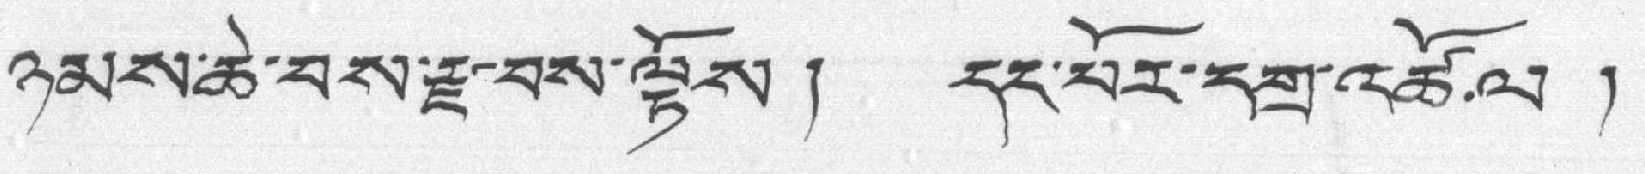ཉམས་ཆེ་བས་རྫ་བས་ལྟོས ། དང་པོར་དགྲ་འཚོ་ལ །
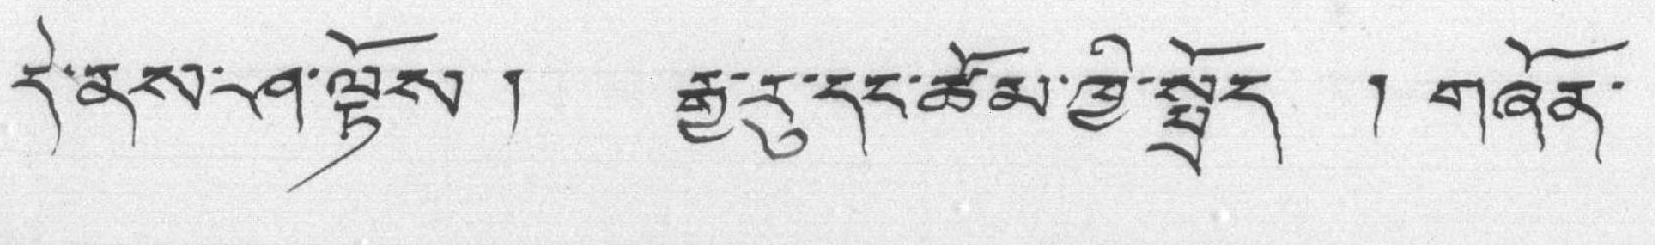དེ་ནས་རཤ་ལྟོས ། རྒྱ་རུ་དང་ཚོམ་ཁྱི་སྤྲོད ། གཞོན་
